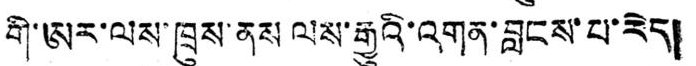གི་ཨར་ལས་ཁྲུས་ནས ལས་རྒྱུའི་འགན་བླངས་པ་རེད།
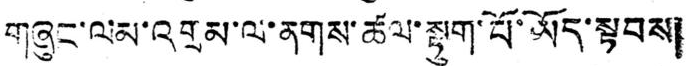གཞུང་ལམ་འགྲམ་ལ་ནགས་ཚལ་སྟུག་པོ་ཡོད་སྟབས།
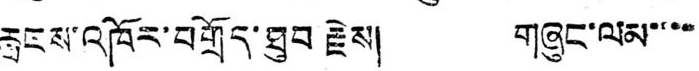རླངས་འཁོར་བགྲོད་ཐུབ རྗེས། གཞུང་ལམ་་་་
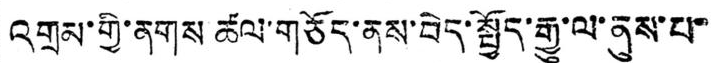འགྲམ་གྱི་ནགས ཚལ་གཅོད་ནས་བེད་སྤྱོད་རྒྱུ་ལ་ནུས་པ་
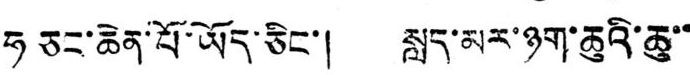ཧ ཅང་ཆེན་པོ་ཡོད་ཅིང་། སླད་མར་ཉག་ཆུའི་ཆུ་་
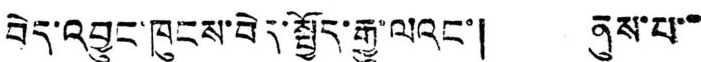བེད་འབྱུང་ཁུངས་བེད་སྤྱོད་རྒྱུ་ལའང་། ནུས་པ་་
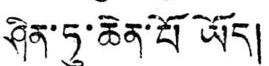ཤིན་ཏུ་ཆེན་པོ ཡོད།
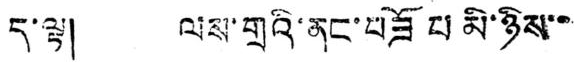ད་ལྟ། ལས་གྲའི་ནང་བཟོ པ མི་ཉིས་་
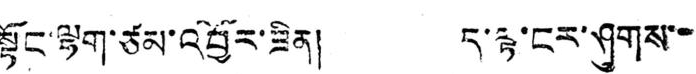སྟོང་ལྷག་ཙམ་འབྱོར་ཟིན། ད་ལྟ་ངར་ཤུགས་་
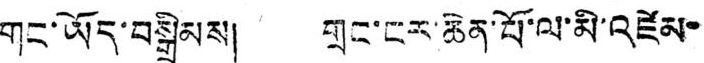གང་ཡོད་བསྒྲིམས། གྲང་ངར་ཆེན་པོ་ལ་མི་འཛེམ་
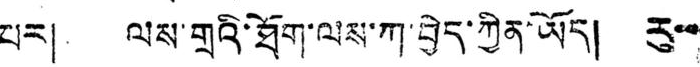པར། ལས་གྲའི་ཐོག་ལས་ཀ་བྱེད་ཀྱིན་ཡོད། རུ་་
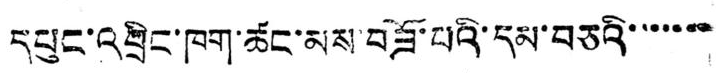དཔུང་འབྲིང་ཁག་ཚང་མས་བཟོ་པའི་དམ་བཅའི་་་་་་་
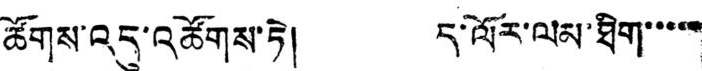ཚོགས་འདུ་འཚོགས་ཏེ། ད་ལོར་ལམ་ཐིག་་་་་
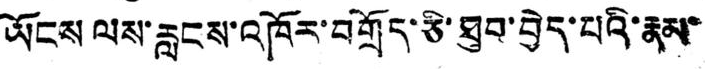ཡོངས ལས་རླངས་འཁོར་བགྲོད་ཅི་ཐུབ་བྱེད་པའི་རྣམ་
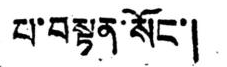པ་བསྟན་སོང་།
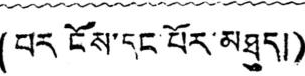(པར ངོས་དང པོར་མཐུད།)
